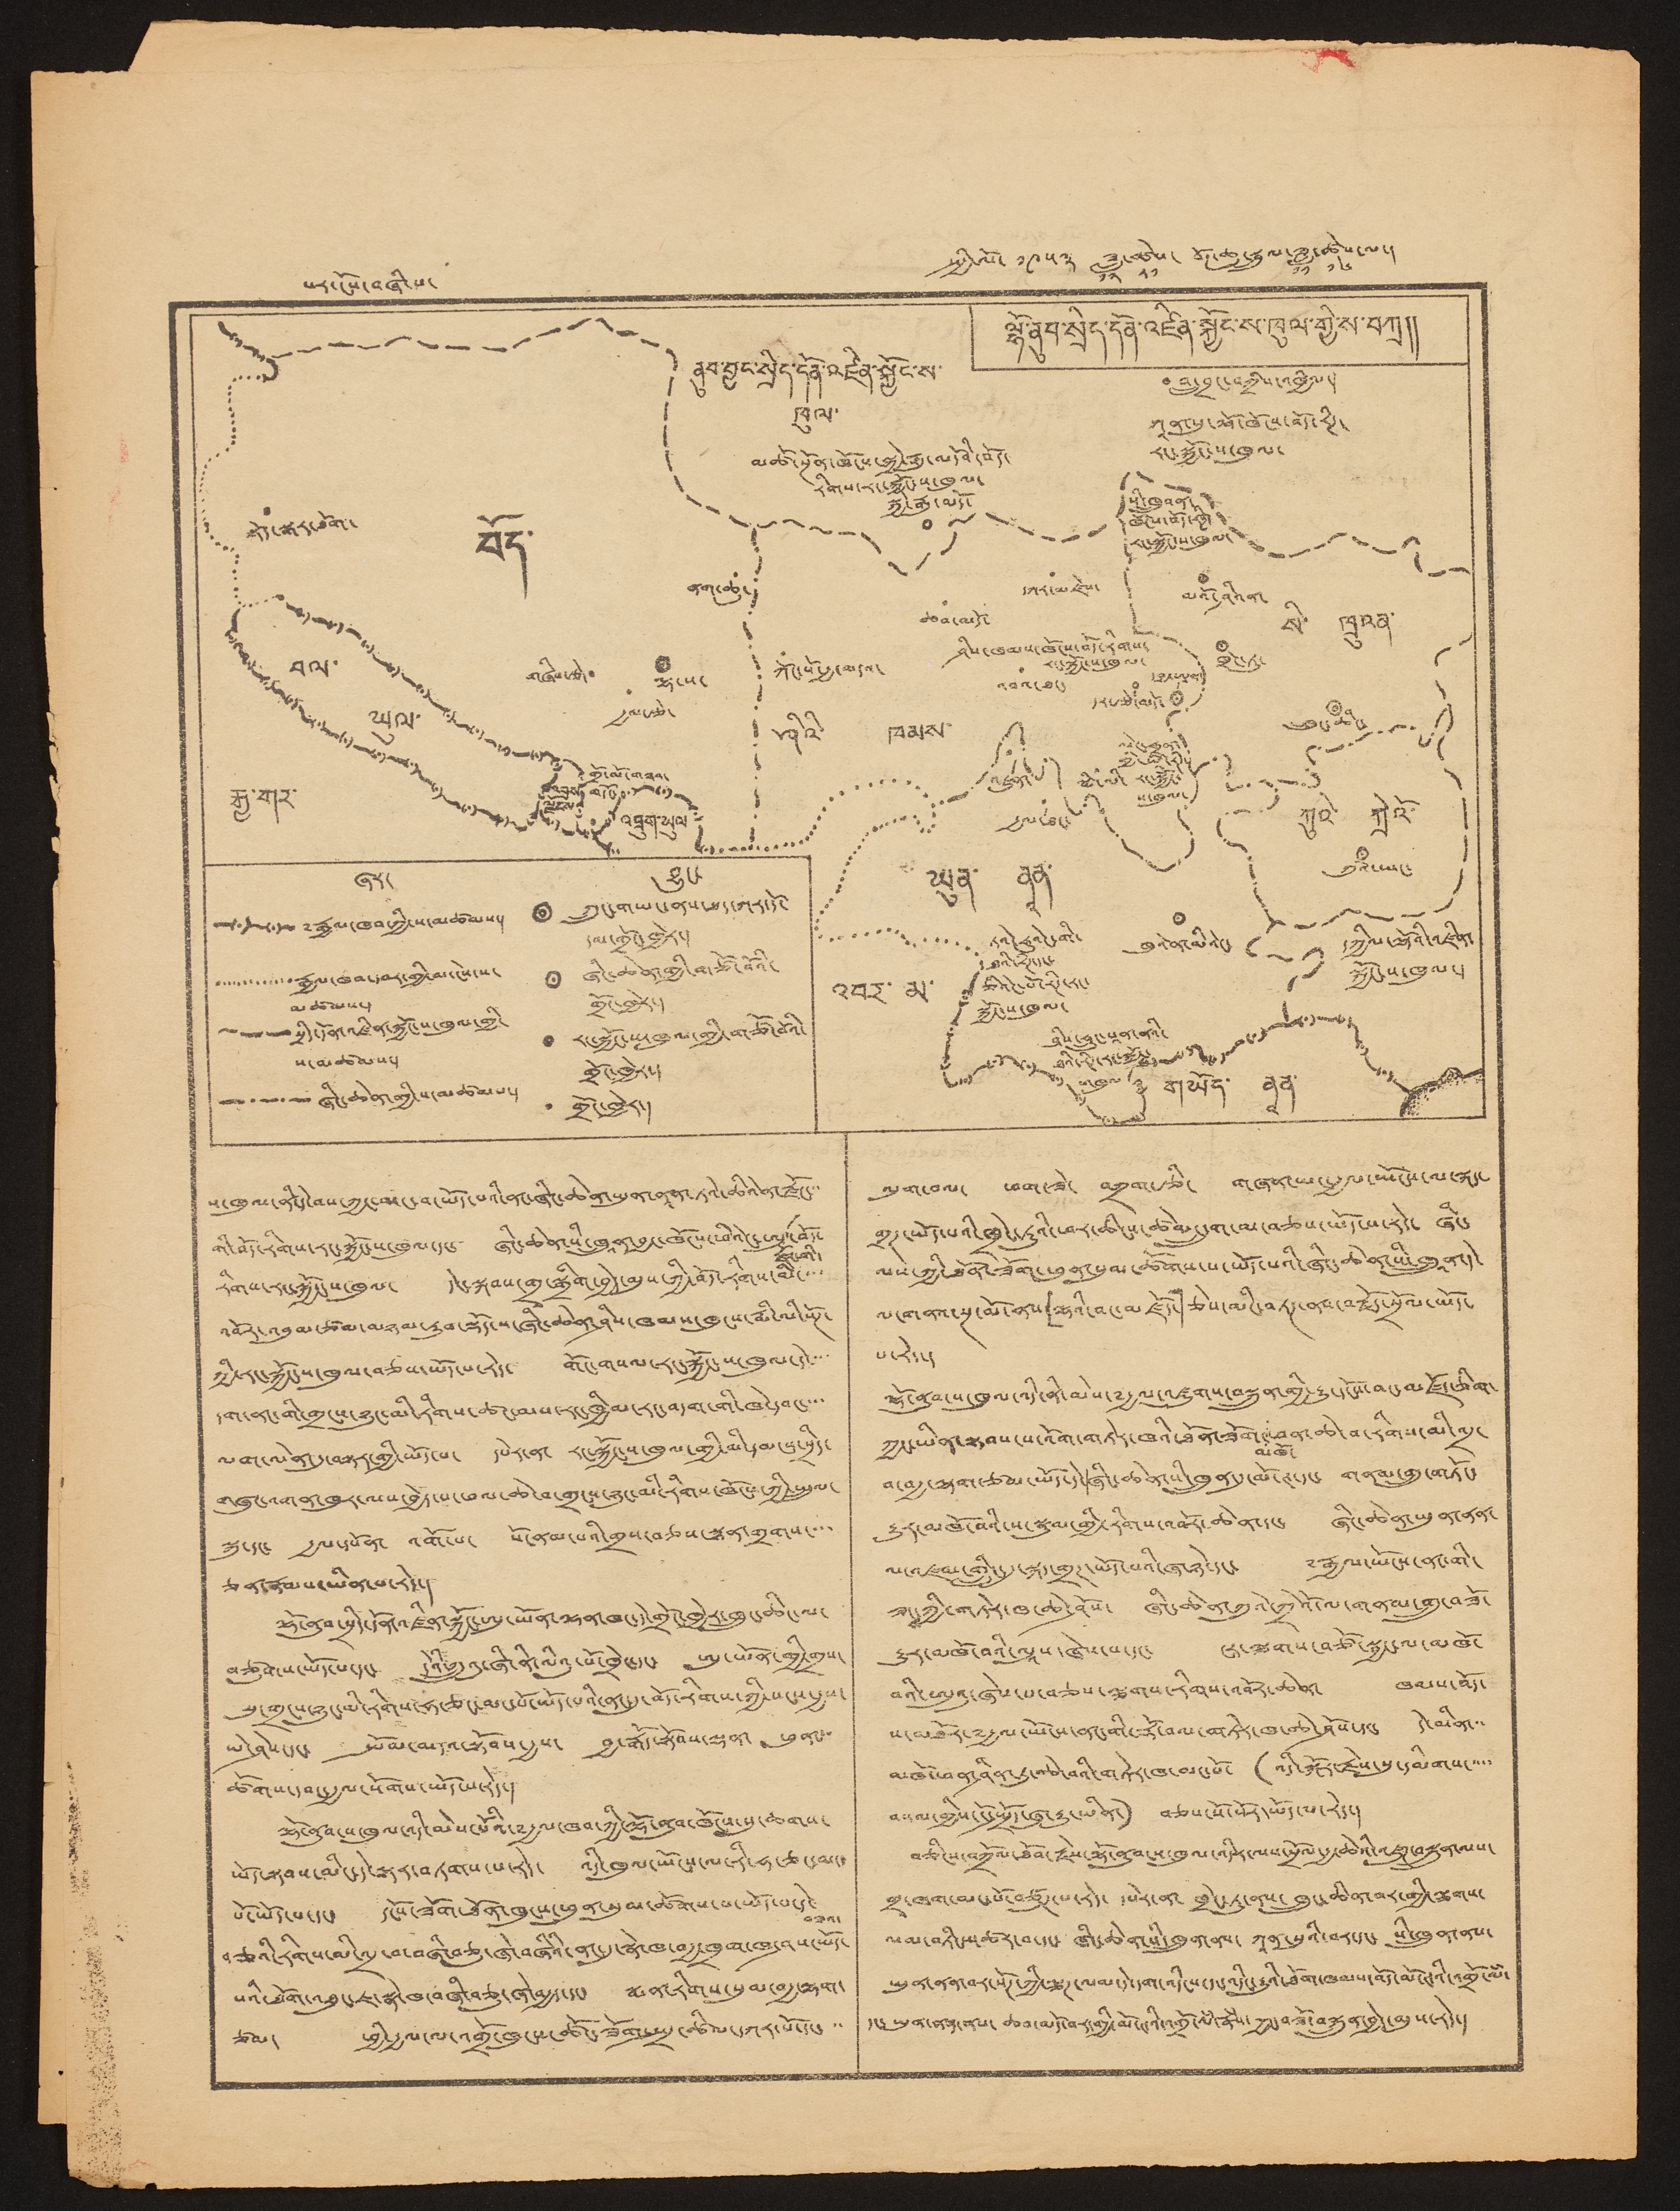པར་ངོས་བཞི་པ་ སྤྱི་ལོ་ ༡༩༥༣ ཟླ་
༡༢
ཚེས་
༢༡
བོད་ཆུ་སྦྲུལ་ཟླ་
༡༡
ཚེས་
༡༦
ལ་།
ལྷོ་ནུབ་སྲིད་དོན་འཛིན་སྐྱོང་ས་ཁུལ་གྱི་ས་བཀྲ།།
ནུབ་བྱང་སྲིད་དོན་འཛིན་སྐྱོང་ས་
ཁུལ་།
བོད་
སྡོད་སྒར་ཐོག་
ནག་ཆུ་
གཞིས་རྩེ་ ལྷ་ས་
རྒྱལ་རྩེ་
བལ་
ཡུལ་
གྲོ་མོ་གཉའ་
གདོང་
རྒྱ་གར་
འབྲས་
ལྗོངས་
འབྲུག་ཡུལ་
མཚོ་སྔོན་ཁོངས་སྐྱེ་རྒུ་མདོའི་བོ་
རིགས་རང་སྐྱོང་ས་ཁུལ་
སྐྱི་རྒུ་མདོ་
བླ་བྲང་བཀྲིས་འཁྱིལ་།
ཀཱན་སུ་ཤོ་ཁོངས་བོད་རིཊ་
རང་སྐྱོང་ས་ཁུལ་
སི་ཁྲུའན་
ཁོངས་བོད་རིཊ་
རང་སྐྱོང་ས་ཁུལ་
མའོ་ཤིའན་
སི་ ཁྲུའན
ཁྲེང་ཏུ་
ཁྲུང་ཆིང་
དཀར་མཛེས་
ཆབ་མདོ་
ཀོང་པོ་རྒྱ་མདའ་ ཤིས་ཁམས་ཁོངས་བོད་རིགས་
རང་སྐྱོང་ས་ཁུལ་
འབའ་ཐང་
དབྱ་ཨན་
དར་རྩེ་མདོ་
ཤིའི་ ཁམས་
འཐེང་ཧྲན་
གྱི་མི་རིཊ་
རང་སྐྱོང་
ས་ཁུལ་
སྨི་ལི་
འཇུན་
རྒྱལ་ཐང་
ཡུན་ ནཱན་
ཏའེ་ཧུའེང་གི་
ཐའི་རིཊ་དང་
ཅིའེང་པོ་རིཊ་རང་
སྐྱོང་ས་ཁུལ་
ཁུའེན་མིའེང་
ཤིས་ཧྲུང་པཱན་ནའི་
ཐའི་རིཊ་རང་སྐྱོང་ས་
ཁུལ་
ཀུའེ་ ཀྲེའོ་
ཀུའེ་ཡང་
དཀྱིལ་ལྷོའི་འཛིན་
སྐྱོང་ས་ཁུལ་།
འབར་མ་
གཡོད་ ནཱན་
ཞར་ བྱུང་
༸རྒྱལ་ཁབ་ཀྱི་ས་མཚམས་།
རྒྱལ་ཁབ་དབར་གྱི་མ་ངེས་ས་
མཚམས་།
སྲིད་དོན་འཛིན་སྐྱོང་ས་ཁུལ་གྱི་
ས་མཚམས་།
ཞིང་ཆེན་གྱི་ས་མཚམས་།
ཀྲུང་གཡང་ནས་ཐད་ཀར་དོ་
དམ་གྲོང་ཁྱེར་།
ཞིང་ཆེན་གྱི་གཙོ་བོའི་
གྲོང་ཁྱེར་།
རང་སྐྱོང་ས་ཁུལ་གྱི་གཙོ་བོའི་
གྲོང་ཁྱེར་།
གྲོང་ཁྱེར་།
ས་ཁུལ་ནི་དེ་བས་ཀྱང་མང་བ་ཡོད་པའི་ནང་ཞིང་ཆེན་ཡུན་ནཱན་ཏའེ་ཆིའེན་རྫོང་་་
གི་བོད་རིགས་རང་སྐྱོང་ས་ཁུལ་དང་ ཞིང་ཆེན་སི་ཁྲུནཱ་བྱང་ཁོངས་ཕིའེང་ཨུ་
རྫོང་གི་
བོད་
རིགས་རང་སྐྱོང་ས་ཁུལ་ དེང་སྐབས་གྲྭ་སྒྲིག་བྱེད་མུས་ཀྱི་བོད་རིགས་མི་་་་
འབོར་འབུམ་ཙམ་མཉམ་རུབ་སྡོད་ས་ཞིང་ཆེན་ཤིས་ཁམས་ཁུངས་རྨི་ལི་སོཊ་
ཀྱི་རང་སྐྱོང་ས་ཁུལ་བཅས་ཡོད་པ་རེད་ གོང་གསལ་རང་སྐྱོང་ས་ཁུལ་དེ་་་་
དག་ནང་གི་གྲངས་ཉུང་མི་རིགས་ཚང་མས་རང་ཁྱིམ་རང་བདག་གི་ཁེ་དབང་་་་
ལག་ལེན་དུ་བསྟར་གྱི་ཡོད་པ་ དཔེར་ན་ རང་སྐྱོང་ས་ཁུལ་གྱི་དམངས་སྲིད་
གཞུང་འགན་ཁུར་ལས་བྱེད་པ་ཕལ་ཆེ་བ་གྲངས་ཉུང་མི་རིགས་ཁོངས་ཀྱི་སྤྲུལ་
སྐུ་དང་ རྒྱལ་དཔོན་ འགོ་པ་ སོ་ནམ་པའི་གྲས་བཅས་སྙན་གྲགས་་་་
ཅན་རྣམས་ཡིན་པ་རེད་།
ལྷོ་ནུབ་སྲིད་དོན་འཛིན་སྐྱོང་ཨུ་ཡོན་ལྷན་ཁང་དེ་གྲོང་ཁྱེར་ཁྲུང་ཆིང་ལ་
བཙུགས་ཡོད་པ་དང་ དེའི་ཀྲུའུ་ཞི་ནི་ལིའུ་པོ་ཁྲེང་དང་ ཨུ་ཡོན་གྱི་གྲས་
སུ་གྲངས་ཉུང་མི་རིགས་ཧ་ཅང་མང་པོ་ཡོད་པའི་ནང་དུ་བོད་རིགས་ཀྱི་སངས་རྒྱས་
ཡེ་ཤེས་དང་ སྤོམ་མདའ་སྟོབས་རྒྱས་ བྱ་རྒོད་སྟོབས་ལྡན་ ཕུན་་་
ཚོགས་དབང་རྒྱལ་སོགས་ཡོད་པ་རེད་།
ལྷོ་ནུབ་ས་ཁུལ་འདི་མེས་པོའི་༸རྒྱལ་ཁབ་ཀྱི་ལྷོ་ནུབ་ཁོངས་སུ་ཆགས་
ཡོད་སྟབས་མིང་དེ་ལྟར་བཏགས་པ་རེད་ འདི་ཁུལ་ཡོངས་ལ་རི་ཧ་ཅང་མང་
པོ་ཡོད་པ་དང་ དངོས་ཟོག་ཐོན་ཁུངས་ཕུན་སུམ་ཚོགས་པ་ཡོད་པ་དེ་
བཟའ་
བཅའི་རིགས་མི་འདྲ་བ་བཞི་བཅུ་ཞེ་བཞིའི་ནང་དུ་སྣེ་ཁ་བརྒྱ་ཁྲག་ཁ་ཤས་ཡོད་
པའི་ཐོག་འཐུང་ཇ་སྣ་ཁ་བཞི་བཅུ་ཞེ་བརྒྱད་དང་ སྨན་རིགས་སུམ་བརྒྱ་ལྷག་
ཙམ་ ཕྱི་རྒྱལ་ལ་འགྲོ་ཁུངས་ཚོང་ཟོག་སྤྲ་ཚིལ་དཀར་པོ་དང་ ་་
ལུག་བལ་ ཕག་ཟེ་ བཀྲག་རྩི་ གཞན་ཡང་རྒྱལ་ཡོངས་ལ་སྐད་
གྲཊ་ཡོད་པའི་ཁྲེང་ཏུའི་བར་ཆིངས་ཚེམ་དྲུག་མ་བཅས་ཡོད་པ་རེད་ ཞིང་
ལས་ཀྱི་ཐོན་ཟོག་ཕུན་སུམ་ཚོགས་པ་ཡོད་པའི་ཞིང་ཆེན་སི་ཁྲུནཱ་དེ་
ལ་གནའ་སྔ་མོ་ནས་「ལྷའི་བང་མཛོད་」ཅེས་མིང་བཏཊ་ནས་བརྗོད་སྲོལ་ཡོད་
པ་རེད་།
ལྷོ་ནུབ་ས་ཁུལ་འདི་ནི་མེས་༸རྒྱལ་འཛུགས་བསྐྲུན་གྱི་རྒྱུ་དངོས་བང་མཛོད་ཅིག་
ཀྱང་ཡིན་སྟབས་ས་འོག་གཏེར་ཁའི་ཐོན་ཟོག་
མཁོ་
ཕན་ཆེ་བ་རིགས་མི་འདྲ་
བ་བརྒྱ་ལྷག་ཙམ་ཡོད་དེ་ཞིང་ཆེན་སི་ཁྲུན་དུ་མོ་ཊ་དང་ གནམ་གྲུ་གཏོང་
རྒྱུར་མཁོ་བའི་ས་སྣུམ་གྱི་རིགས་འབོར་ཆེན་དང་ ཞིང་ཆེན་ཡུན་ནན་
ལ་འཛམ་གླིང་དུ་སྐད་གྲཊ་ཡོད་པའི་ཞ་ཉེ་དང་ ༸རྒྱལ་ཡོངས་ནང་གི་
ཟང་
ས
ཀྱི་གཏེར་ཁ་ཆེ་ཤོས་ ཞིང་ཆེན་ཀུའེ་ཀྲེའོ་ལ་གནམ་གྲུ་བཟོ་
རྒྱུར་མཁོ་བའི་ལུསཱ་ཞེས་པ་དང་ ངར་ལྕགས་བཙོ་སྦྱང་ལ་མཁོ་
བའི་ཨུའུ་ཞེས་བ་བཅས་ལྕགས་རིགས་འབོར་ཆེན་ ཁམས་བོད་
ས་མཐོར་༸རྒྱལ་ཡོངས་ནང་གི་རྡོ་བལ་གཏེར་ཁ་ཆེ་ཤོས་དང་ དེ་མིན་་་
མཁོ་ཕན་ཤིན་ཏུ་ཆེ་བའི་གཏེར་ཁ་མང་པོ་ (འདི་སྐོར་རྗེས་སུ་དམིགས་་་་་
བསལ་གྱིས་ངོ་སྤྲོད་ཞུ་རྒྱུ་ཡིན་་་) བཅས་སོ་སོར་ཡོད་པ་རེད་།
བཅིངས་བཀྲོལ་ཐོབ་རྗེས་ལྷོ་ནུབ་ས་ཁུལ་འདིར་ལས་སྲོལ་རྒྱ་ཆེའི་འཛུཊ་བསྐྲུན་ལས་
གྲྭ་ཁག་མང་པོ་བཙུཊ་པ་རེད་ དཔེར་ན་ ཁྲེང་ཏུ་ནས་ ཁྲུང་ཆིན་བར་གྱི་ལྕགས་
ལམ་གཏིངས་ཚར་བ་དང་ ཞིང་ཆེན་སི་ཁྲུན་ནས་ ཀཱན་སུའི་བར་དང་ སི་ཁྲུན་ནས་
ཡུན་ནན་བར་སོཊ་ཀྱི་ལྕཊ་ལམ་དེ་དག་འདིངས་དང་འདིང་རྒྱུའི་ཐོག་ཁམས་བོད་མོ་ཊའི་འགྲོ་ལཾ་
དང་ ཡུན་ནན་ནས་ ཆབ་མདོ་བར་གྱི་མོ་ཊའི་འགྲོ་ལཾ་རྣཾས་་རྒྱང་བཟོ་བསྐྲུན་བྱེད་མུས་རེད་།
